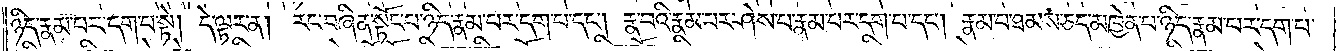ཉིད་རྣམ་པར་དག་པ་སྟེ། དེ་ལྟར་ན། རང་བཞིན་སྟོང་པ་ཉིད་རྣམ་པར་དག་པ་དང༌། རྣ་བའི་རྣམ་པར་ཤེས་པ་རྣམ་པར་དག་པ་དང༌། རྣམ་པ་ཐམས་ཅད་མཁྱེན་པ་ཉིད་རྣམ་པར་དག་པ་
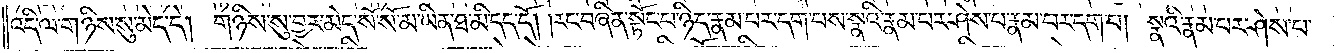འདི་ལ་གཉིས་སུ་མེད་དེ། གཉིས་སུ་བྱར་མེད་སོ་སོ་མ་ཡིན་ཐ་མི་དད་དོ། །རང་བཞིན་སྟོང་པ་ཉིད་རྣམ་པར་དག་པས་སྣའི་རྣམ་པར་ཤེས་པ་རྣམ་པར་དག་པ། སྣའི་རྣམ་པར་ཤེས་པ་
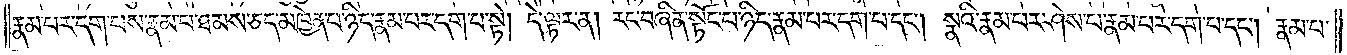རྣམ་པར་དག་པས་རྣམ་པ་ཐམས་ཅད་མཁྱེན་པ་ཉིད་རྣམ་པར་དག་པ་སྟེ། དེ་ལྟར་ན། རང་བཞིན་སྟོང་པ་ཉིད་རྣམ་པར་དག་པ་དང༌། སྣའི་རྣམ་པར་ཤེས་པ་རྣམ་པར་དག་པ་དང༌། རྣམ་པ་
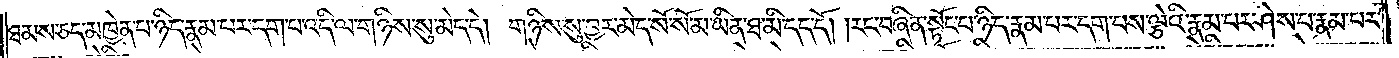ཐམས་ཅད་མཁྱེན་པ་ཉིད་རྣམ་པར་དག་པ་འདི་ལ་གཉིས་སུ་མེད་དེ། གཉིས་སུ་བྱར་མེད་སོ་སོ་མ་ཡིན་ཐ་མི་དད་དོ། །རང་བཞིན་སྟོང་པ་ཉིད་རྣམ་པར་དག་པས་ལྕེའི་རྣམ་པར་ཤེས་པ་རྣམ་པར་
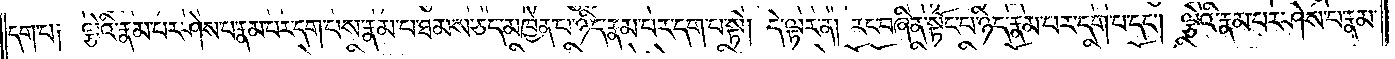དག་པ༑ ལྕེའི་རྣམ་པར་ཤེས་པ་རྣམ་པར་དག་པས་རྣམ་པ་ཐམས་ཅད་མཁྱེན་པ་ཉིད་རྣམ་པར་དག་པ་སྟེ། དེ་ལྟར་ན། རང་བཞིན་སྟོང་པ་ཉིད་རྣམ་པར་དག་པ་དང༌། ལྕེའི་རྣམ་པར་ཤེས་པ་རྣམ་
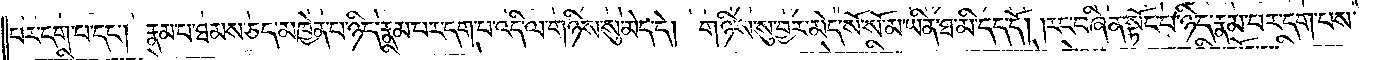པར་དག་པ་དང༌། རྣམ་པ་ཐམས་ཅད་མཁྱེན་པ་ཉིད་རྣམ་པར་དག་པ་འདི་ལ་གཉིས་སུ་མེད་དེ། གཉིས་སུ་བྱར་མེད་སོ་སོ་མ་ཡིན་ཐ་མི་དད་དོ། །རང་བཞིན་སྟོང་པ་ཉིད་རྣམ་པར་དག་པས་
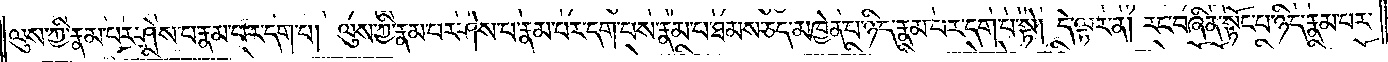ལུས་ཀྱི་རྣམ་པར་ཤེས་པ་རྣམ་པར་དག་པ། ལུས་ཀྱི་རྣམ་པར་ཤེས་པ་རྣམ་པར་དག་པས་རྣམ་པ་ཐམས་ཅད་མཁྱེན་པ་ཉིད་རྣམ་པར་དག་པ་སྟེ། དེ་ལྟར་ན། རང་བཞིན་སྟོང་པ་ཉིད་རྣམ་པར་
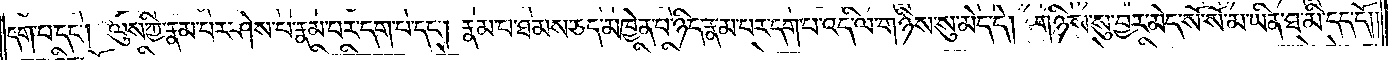དག་པ་དང༌། ལུས་ཀྱི་རྣམ་པར་ཤེས་པ་རྣམ་པར་དག་པ་དང༌། རྣམ་པ་ཐམས་ཅད་མཁྱེན་པ་ཉིད་རྣམ་པར་དག་པ་འདི་ལ་གཉིས་སུ་མེད་དེ། གཉིས་སུ་བྱར་མེད་སོ་སོ་མ་ཡིན་ཐ་མི་དད་དོ། །
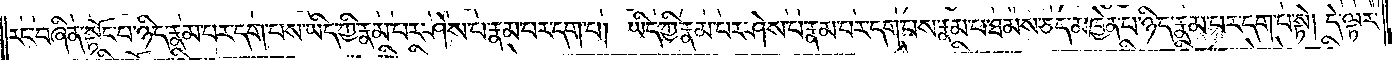རང་བཞིན་སྟོང་པ་ཉིད་རྣམ་པར་དག་པས་ཡིད་ཀྱི་རྣམ་པར་ཤེས་པ་རྣམ་པར་དག་པ། ཡིད་ཀྱི་རྣམ་པར་ཤེས་པ་རྣམ་པར་དག་པས་རྣམ་པ་ཐམས་ཅད་མཁྱེན་པ་ཉིད་རྣམ་པར་དག་པ་སྟེ། དེ་ལྟར་
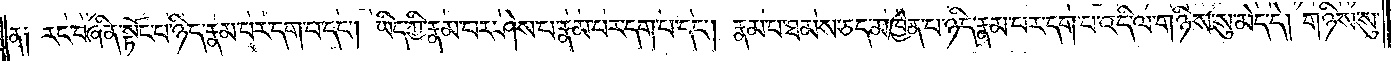ན༑ རང་བཞིན་སྟོང་པ་ཉིད་རྣམ་པར་དག་པ་དང༌། ཡིད་ཀྱི་རྣམ་པར་ཤེས་པ་རྣམ་པར་དག་པ་དང༌། རྣམ་པ་ཐམས་ཅད་མཁྱེན་པ་ཉིད་རྣམ་པར་དག་པ་འདི་ལ་གཉིས་སུ་མེད་དེ། གཉིས་སུ་
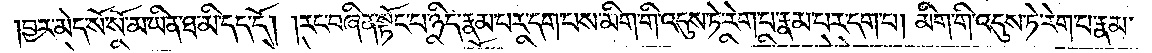བྱར་མེད་སོ་སོ་མ་ཡིན་ཐ་མི་དད་དོ། །རང་བཞིན་སྟོང་པ་ཉིད་རྣམ་པར་དག་པས་མིག་གི་འདུས་ཏེ་རེག་པ་རྣམ་པར་དག་པ། མིག་གི་འདུས་ཏེ་རེག་པ་རྣམ་
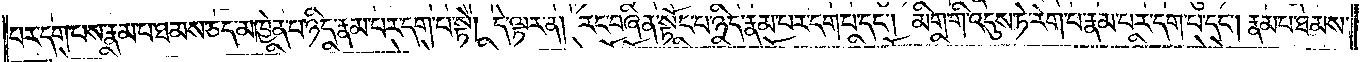པར་དག་པས་རྣམ་པ་ཐམས་ཅད་མཁྱེན་པ་ཉིད་རྣམ་པར་དག་པ་སྟེ། དེ་ལྟར་ན། རང་བཞིན་སྟོང་པ་ཉིད་རྣམ་པར་དག་པ་དང༌། མིག་གི་འདུས་ཏེ་རེག་པ་རྣམ་པར་དག་པ་དང༌། རྣམ་པ་ཐམས་
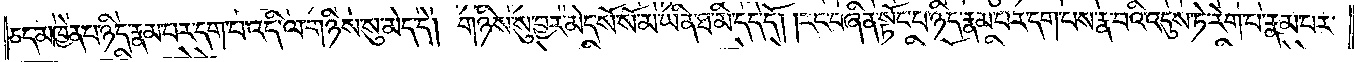ཅད་མཁྱེན་པ་ཉིད་རྣམ་པར་དག་པ་འདི་ལ་གཉིས་སུ་མེད་དེ། གཉིས་སུ་བྱར་མེད་སོ་སོ་མ་ཡིན་ཐ་མི་དད་དོ། །རང་བཞིན་སྟོང་པ་ཉིད་རྣམ་པར་དག་པས་རྣ་བའི་འདུས་ཏེ་རེག་པ་རྣམ་པར་
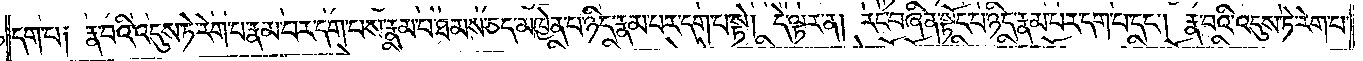དག་པ༑ རྣ་བའི་འདུས་ཏེ་རེག་པ་རྣམ་པར་དག་པས་རྣམ་པ་ཐམས་ཅད་མཁྱེན་པ་ཉིད་རྣམ་པར་དག་པ་སྟེ། དེ་ལྟར་ན། རང་བཞིན་སྟོང་པ་ཉིད་རྣམ་པར་དག་པ་དང༌། རྣ་བའི་འདུས་ཏེ་རེག་པ་
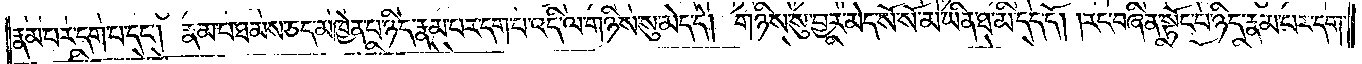རྣམ་པར་དག་པ་དང༌། རྣམ་པ་ཐམས་ཅད་མཁྱེན་པ་ཉིད་རྣམ་པར་དག་པ་འདི་ལ་གཉིས་སུ་མེད་དེ། གཉིས་སུ་བྱར་མེད་སོ་སོ་མ་ཡིན་ཐ་མི་དད་དོ། །རང་བཞིན་སྟོང་པ་ཉིད་རྣམ་པར་དག་
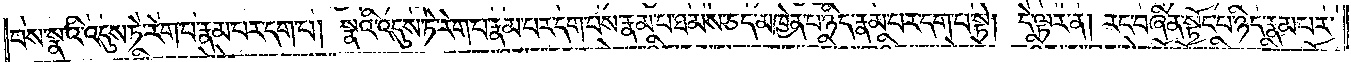པས་སྣའི་འདུས་ཏེ་རེག་པ་རྣམ་པར་དག་པ། སྣའི་འདུས་ཏེ་རེག་པ་རྣམ་པར་དག་པས་རྣམ་པ་ཐམས་ཅད་མཁྱེན་པ་ཉིད་རྣམ་པར་དག་པ་སྟེ། དེ་ལྟར་ན། རང་བཞིན་སྟོང་པ་ཉིད་རྣམ་པར་
